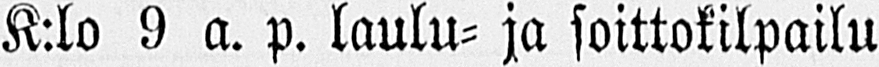K:lo 9 a. p. laulu- ja soittokilpailu
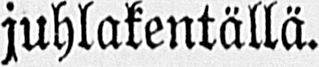juhlakentällä.
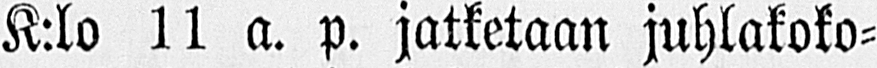K:lo 11 a. p. jatketaan juhlakoko-
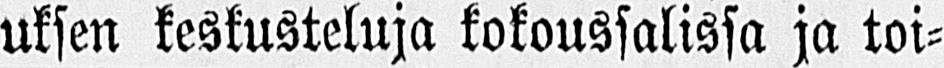uksen keskusteluja kokoussalissa ja toi-
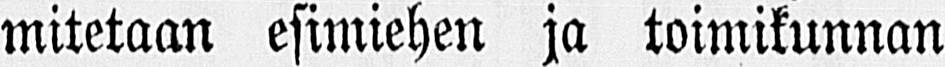mitetaan esimiehen ja toimikunnan
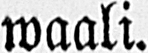waali.
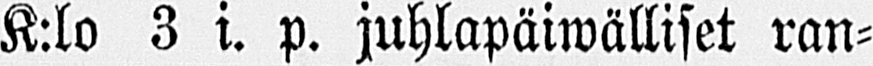K:lo 3 i. p. juhlapäiwälliset ran-
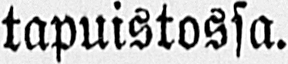tapuistossa.
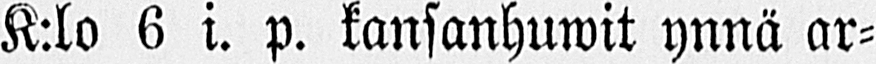K:lo 6 i. p. kansanhuwit ynnä ar-
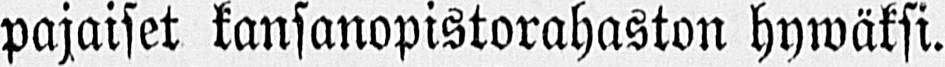pajaiset kansanopistorahaston hywäksi.
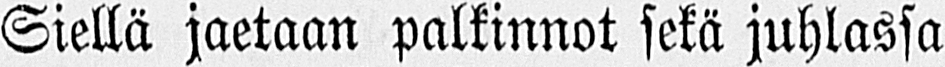Siellä jaetaan palkinnot sekä juhlassa
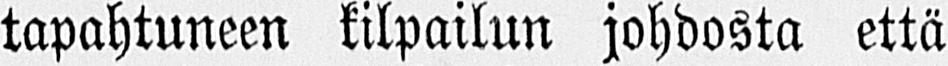tapahtuneen kilpailun johdosta että
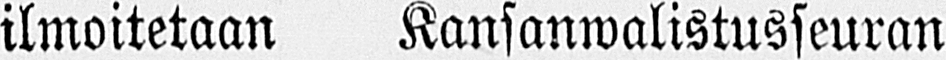ilmoitetaan Kansanwalistusseuran
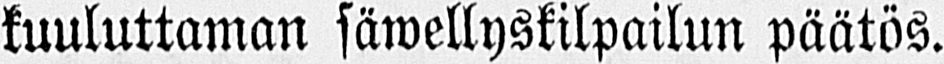kuuluttaman säwellyskilpailun päätös.
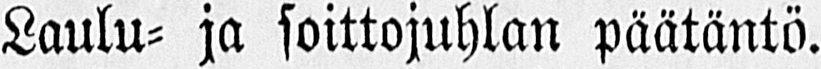Laulu- ja soittojuhlan päätäntö.
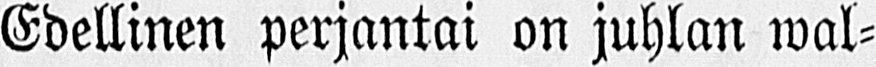Edellinen perjantai on juhlan wal-
